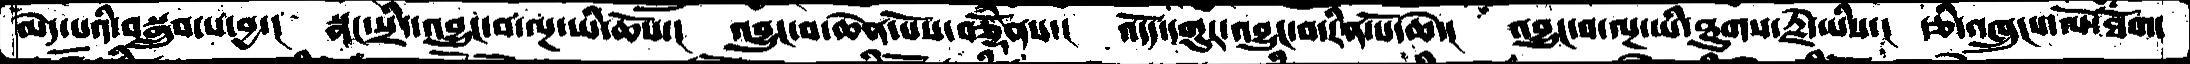མེད་པའི་བསྒྲུབ་པ་བྱ་།  སྣང་སྲིད་འབྱུང་བ་ལྔ་ཡི་ཆོས་།  འབྱུང་བ་ཆེན་པོས་བཅྡོཾནས་།  འདོད་དགུར་འབྱུང་བ་རིན་པོ་ཆེ་།  འབྱུང་བ་ལྔ་ཡི་ཐུགས་རྗེ་ཡིས་།  རྩི་འཁྲུངས་ལོ་ཐོག་
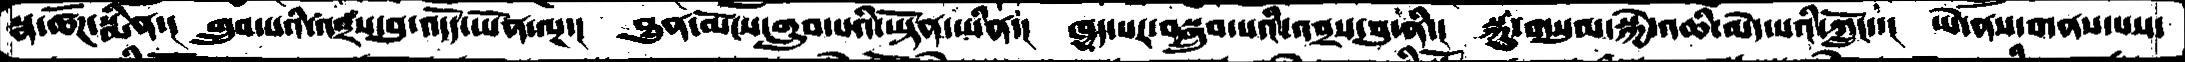སྣ་ཚོཌ་སྨིན་།   གྲུབ་པའི་འབྲས་བུ་འདོད་ཡོན་ལྔ་།  ཐུན་མོངས་གྲུབ་པའི་ཡྟོན་ཡིན་།  ཁྱད་པར་བསྒྲུབ་པའི་འབྲས་བུ་ནི་།  སྐུ་གསུམ་སྐྱེ་འཆི་མེད་པའིི་ཀློང་་།  ཡེ་ནས་གནས་པས་
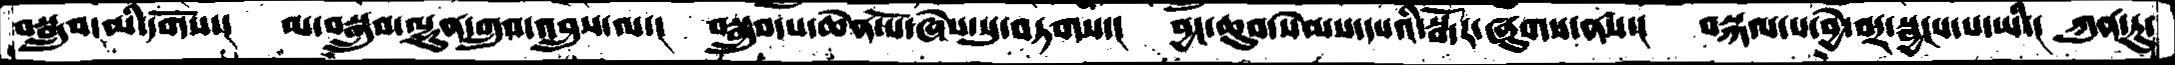བསྒྲུབ་མི་དགོས་།  མ་བསྒྲུབ་ལྷུན་གྲུབ་འབྲུས་ལ་།  བསྒྲུབ་པ་ཆེན་པོ་ཞེས་སུ་བཏགས་།  བྱང་ཆུབ་སེམས་དཔའི་སྒོར་ཞུགས་ནས་།  བསྐལ་པ་བྱེ་བར་སྦྱངས་པ་ཡི་།  ཀུན་ཏུ་
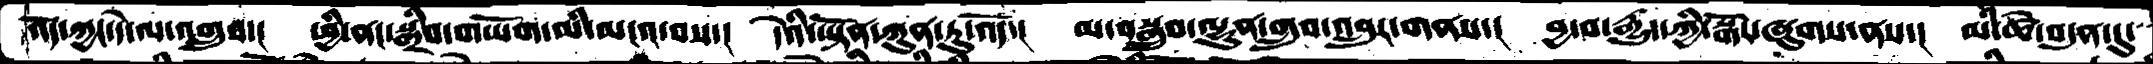འོད་ཀྱང་དེ་ལ་འགྲུབ་།  ཕྱི་ནང་སྒྲིབ་གཡོག་མི་མངའ་བས་།  དེའི་ཡྟོན་ཀུན་ཏུ་འོད་།  མ་བསྒྲུབ་ལྷུན་གྲུབ་འབྲུར་གནས་།  བྱ་བ་རྒྱུད་ཀྱི་སྒོར་ཞུགས་ནས་།  མི་ཚེ་བདུན་དུ་
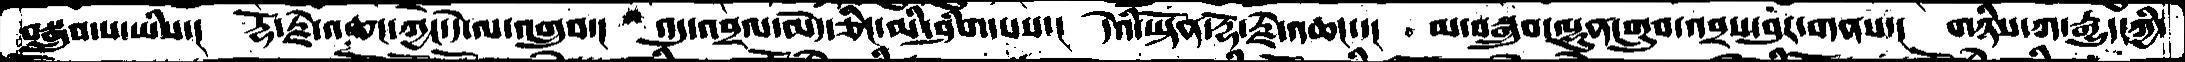བསྒྲུབ་པ་ཡིས་།  རྡོ་རྗེ་འཆང་ཀྱང་དེ་ལ་འགྲུབ་།  འདུ་འབྲལ་མེད་ཅིང་མི་ཤིག་པས་།  དེའི་ཡྟོན་རྡོ་རྗེ་འཆང་་།  མ་བསྒྲུབ་ལྷུན་གྲུབ་འབྲས་བུར་གནས་།  གཉིས་ཀ་རྒྱུད་ཀྱི་
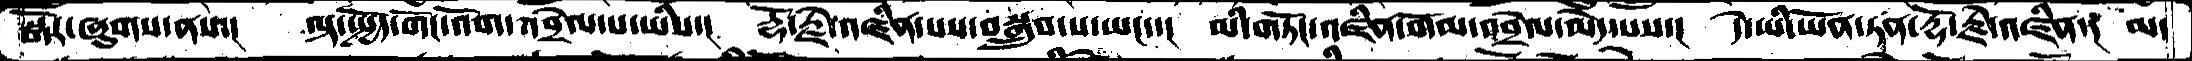སྒོར་ཞུགས་ནས་།  ལྟ་སྤྱོད་གོང་འོག་འབྲེལ་པ་ཡིས་།  རྡོ་རྗེ་འཛིན་པས་བསྒྲུབ་པ་ཡང་་།  མི་གཏོང་འཛིན་གོལ་འབྲེལ་མེད་པས་།  དེ་ཡི་ཡོན་ཏན་རྡོ་རྗེ་འཛིན་།  མ་
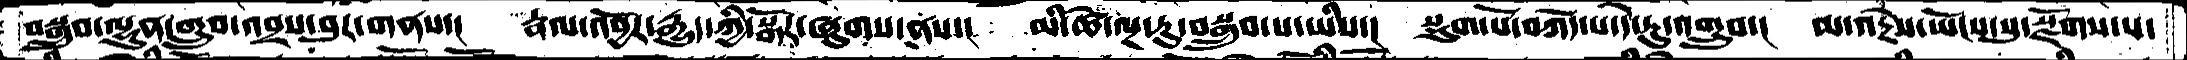བསྒྲུབ་ལྷུན་གྲུབ་འབྲས་བུར་གནས་།  རྣལ་འབྱོར་རྒྱུད་ཀྱི་སྒོར་ཞུགས་ནས་།  མི་ཚེ་ལྔ་རུ་བསྒྲུབ་པ་ཡིས་།  སྡུག་པོ་བཀོད་པ་དེ་རུ་འགྲུབ་།  མ་འདྲེས་ཡོངས་སུ་སྫོགས་པ་
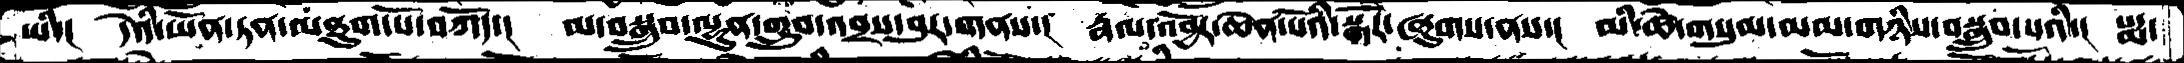ཡི་།   དེའི་ཡོན་ཏན་མཐུག་པོ་བཀོད་།  མ་བསྒྲུབ་ལྷུན་གྲུབ་འབྲས་བུར་གནས་།  རྣལ་འབྱོར་ཆེན་པོའི་སྒོར་ཞུགས་ནས་།  མི་ཚེ་གསུམ་མམ་གཉིས་བསྒྲུབ་པའི་།   པདྨ་
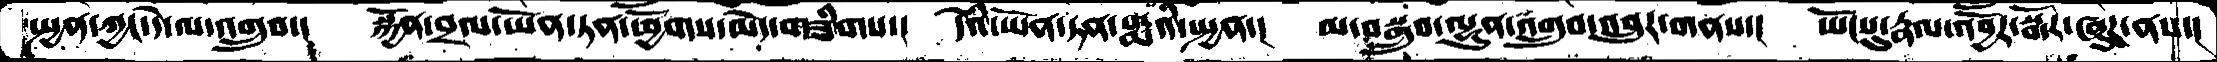སྤྱན་ཀྱང་དེ་ལ་འགྲུབ་།  སྐྱོན་བྲལ་ཡོན་ཏན་ཕྱོགས་མེད་གཟིགས་།  དེའི་ཡོན་ཏན་པདྨའི་སྤྱན་།  མ་བསྒྲུབ་ལྷུན་འགྲུབ་འབྲུར་གནས་།  ཡོངསུ་རྣལ་འབྱོར་སྒོར་ཞུཌ་ནས་།
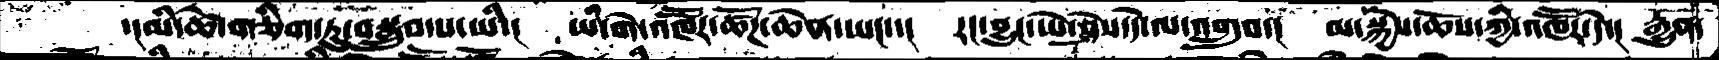་།མི་ཚེ་གཅིག་ཏུ་བསྒྲུབ་པ་ཡི་།   ཡི་གེ་འཁཽར་ཚོཌ་ཆེན་ཡང་་།  རང་བྱུང་ཡེ་ཤེས་དེ་ལ་འགྲུབ་།  མ་སྐྱེས་ཆོས་ཀྱི་འཁཽར་དེ་།  རྒྱུན་
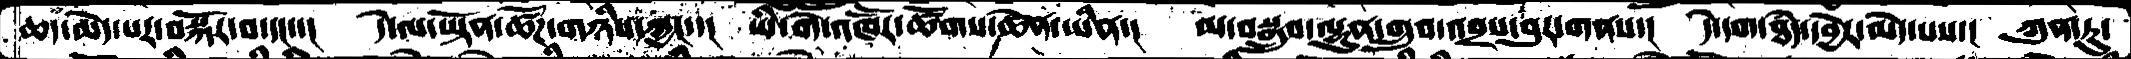ཆད་མེད་པར་བསྐོར་བ་དང་་།  དེ་ལ་ཡྟོན་ཚོཌ་གཉིས་ཀྱང་་།  ཡི་གེ་འཁཽར་ཚོགས་ཆེན་ཡིན་།  མ་བསྒྲུབ་ལྷུན་གྲུབ་འབྲས་བུར་གནས་།  དེ་དག་ཐཾད་དབྱེར་མེད་པས་།  ཀུན་ཏུ་
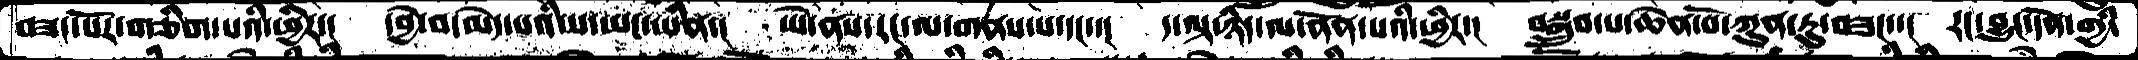བཟང་པོར་གཅིག་པའི་ཕྱིར་།  དབྱེ་བ་མེད་པའི་ས་ཡང་ཡིན་།  ཡེ་ནས་རང་ལ་གནས་པ་དང་།  ད་ལྟ་ཉིད་ལ་ནོན་པའི་ཕྱིར་།  བསྒྲུབ་པ་ཆེན་པོ་ཀུན་ཏུ་བཟང་་།  རང་བྱུང་དོན་གྱི་
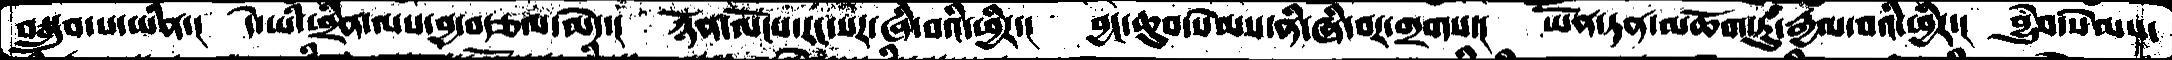བསྒྲུབ་པ་ཡིན་།  དེ་ཡི་ཕྲིན་ལས་བྱ་བརྩལ་མེད་།  ཉོན་མོངས་རང་སར་ཞི་བའི་ཕྱིར་།  བྱང་ཆུབ་སེམས་ནི་ཞི་བར་གྲགས་།  ཡོན་ཏན་མཆོག་ཏུ་རྒྱལ་བའི་ཕྱིར་།  བྱུཾབ་སེམས་
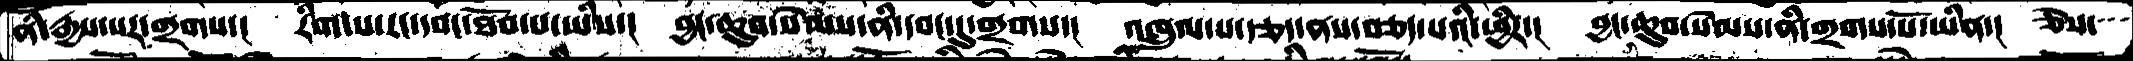ནི་རྒྱས་པར་གྲགས་།   རིག་པ་རང་དབང་ཐོབ་པ་ཡིས་།  བྱང་ཆུབ་སེམས་ནི་དབང་དུ་གྲགས་།  འཁྲུལ་པ་རྩད་ནས་བཅད་པའི་ཕྱིར་།  བྱང་ཆུབ་སེམས་ནི་གྲགས་པོ་ཡིན་།  ཅེས་
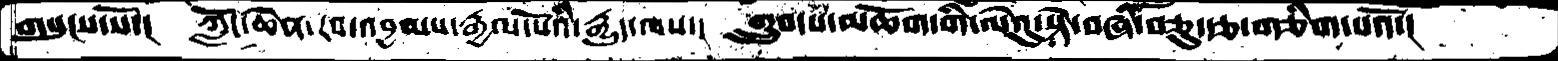གསུངས་སོ་།  ཀློང་ཆེན་རབ་འབྱམས་རྒྱལ་པོའི་རྒྱུད་ལས་།  གྲུབ་པ་མཆོག་གི་ལེའུ་སྟེ་བཞི་བཅུ་རྩ་གཅིག་པའོ་།
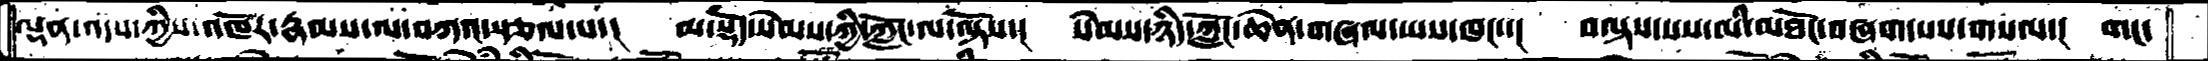ལྡན་འདས་ཀྱིས་འཁོར་རྣམས་ལ་བཀའ་སྩལ་པ་།   མ་སྡོད་སེམས་ཀྱི་ཀློང་ལ་ལྟོས་།  སེམས་ཉིད་ཀློང་ཆེན་གཞལ་ཡས་ཁང་་།  བལྟས་པས་མི་མཐོང་བཞག་པས་གསལ་།  གང་
